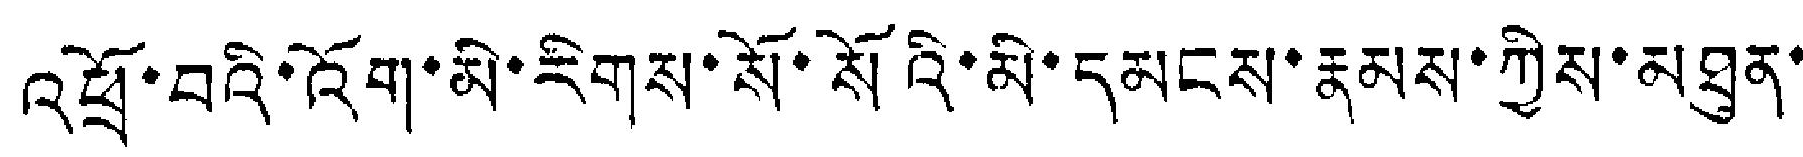འཕྲོ་བའི་འོག་མི་རིགས་སོ་སོའི་མི་དམངས་རྣམས་ཀྱིས་མཐུན་
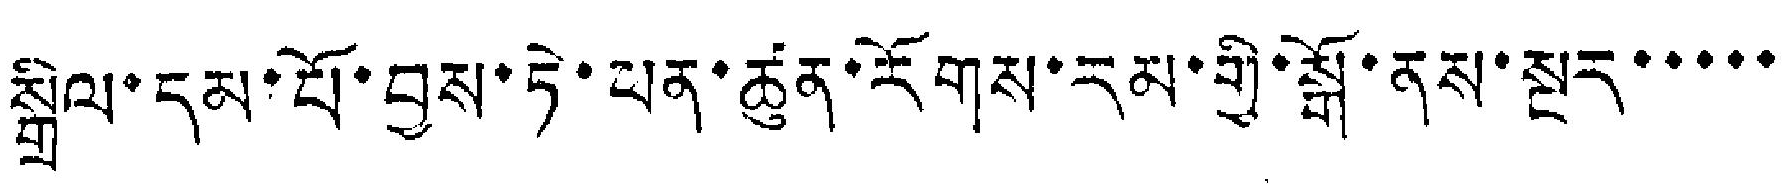སྒྲིལ་དམ་པོ་བྱས་ཏེ་ཕན་ཚུན་རོགས་རམ་གྱི་སྒོ་ནས་སྔར་་་་་
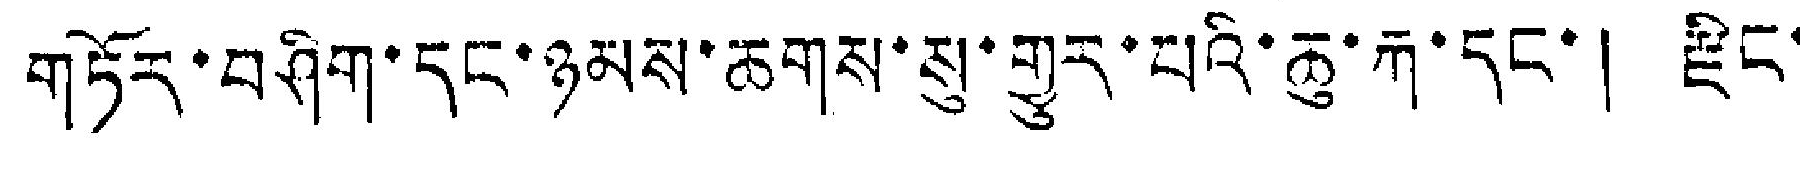གཏོར་བཤིག་དང་ཉམས་ཆགས་སུ་གྱུར་པའི་ཆུ་རྐ་དང་། རྫིང་
